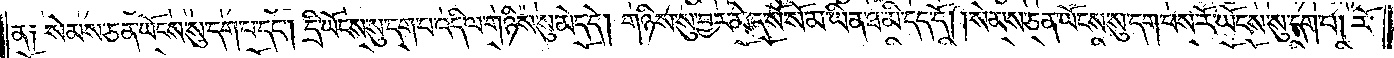ན། སེམས་ཅན་ཡོངས་སུ་དག་པ་དང༌། དྲི་ཡོངས་སུ་དག་པ་འདི་ལ་གཉིས་སུ་མེད་དེ། གཉིས་སུ་བྱར་མེད་སོ་སོ་མ་ཡིན་ཐ་མི་དད་དོ། །སེམས་ཅན་ཡོངས་སུ་དག་པས་རོ་ཡོངས་སུ་དག་པ། རོ་
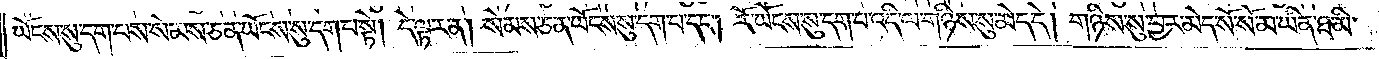ཡོངས་སུ་དག་པས་སེམས་ཅན་ཡོངས་སུ་དག་པ་སྟེ། དེ་ལྟར་ན། སེམས་ཅན་ཡོངས་སུ་དག་པ་དང༌། །རོ་ཡོངས་སུ་དག་པ་འདི་ལ་གཉིས་སུ་མེད་དེ། གཉིས་སུ་བྱར་མེད་སོ་སོ་མ་ཡིན་ཐ་མི་
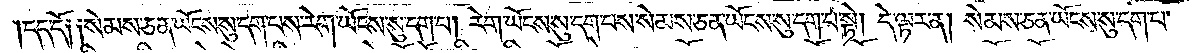དད་དོ། །སེམས་ཅན་ཡོངས་སུ་དག་པས་རེག་ཡོངས་སུ་དག་པ། རེག་ཡོངས་སུ་དག་པས་སེམས་ཅན་ཡོངས་སུ་དག་པ་སྟེ། དེ་ལྟར་ན། སེམས་ཅན་ཡོངས་སུ་དག་པ་
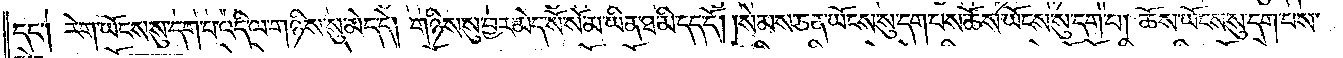དང༌། རེག་ཡོངས་སུ་དག་པ་འདི་ལ་གཉིས་སུ་མེད་དེ། གཉིས་སུ་བྱར་མེད་སོ་སོ་མ་ཡིན་ཐ་མི་དད་དོ། །སེམས་ཅན་ཡོངས་སུ་དག་པས་ཆོས་ཡོངས་སུ་དག་པ། ཆོས་ཡོངས་སུ་དག་པས་
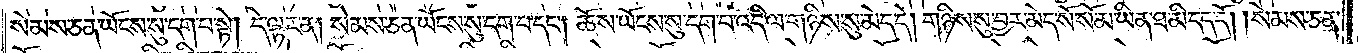སེམས་ཅན་ཡོངས་སུ་དག་པ་སྟེ། དེ་ལྟར་ན། སེམས་ཅན་ཡོངས་སུ་དག་པ་དང༌། ཆོས་ཡོངས་སུ་དག་པ་འདི་ལ་གཉིས་སུ་མེད་དེ། གཉིས་སུ་བྱར་མེད་སོ་སོ་མ་ཡིན་ཐ་མི་དད་དོ། །སེམས་ཅན་
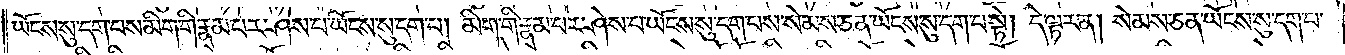ཡོངས་སུ་དག་པས་མིག་གི་རྣམ་པར་ཤེས་པ་ཡོངས་སུ་དག་པ། མིག་གི་རྣམ་པར་ཤེས་པ་ཡོངས་སུ་དག་པས་སེམས་ཅན་ཡོངས་སུ་དག་པ་སྟེ། དེ་ལྟར་ན། སེམས་ཅན་ཡོངས་སུ་དག་པ་
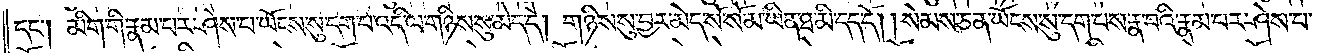དང༌། མིག་གི་རྣམ་པར་ཤེས་པ་ཡོངས་སུ་དག་པ་འདི་ལ་གཉིས་སུ་མེད་དེ། གཉིས་སུ་བྱར་མེད་སོ་སོ་མ་ཡིན་ཐ་མི་དད་དོ། །སེམས་ཅན་ཡོངས་སུ་དག་པས་རྣ་བའི་རྣམ་པར་ཤེས་པ་
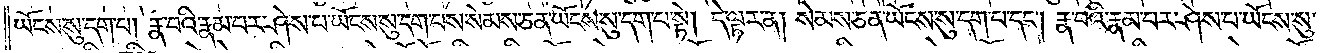ཡོངས་སུ་དག་པ། རྣ་བའི་རྣམ་པར་ཤེས་པ་ཡོངས་སུ་དག་པས་སེམས་ཅན་ཡོངས་སུ་དག་པ་སྟེ། དེ་ལྟར་ན། སེམས་ཅན་ཡོངས་སུ་དག་པ་དང༌། རྣ་བའི་རྣམ་པར་ཤེས་པ་ཡོངས་སུ་
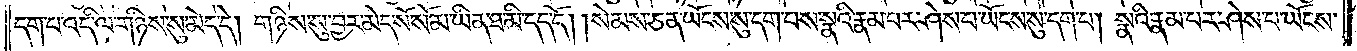དག་པ་འདི་ལ་གཉིས་སུ་མེད་དེ། གཉིས་སུ་བྱར་མེད་སོ་སོ་མ་ཡིན་ཐ་མི་དད་དོ། །སེམས་ཅན་ཡོངས་སུ་དག་པས་སྣའི་རྣམ་པར་ཤེས་པ་ཡོངས་སུ་དག་པ། སྣའི་རྣམ་པར་ཤེས་པ་ཡོངས་
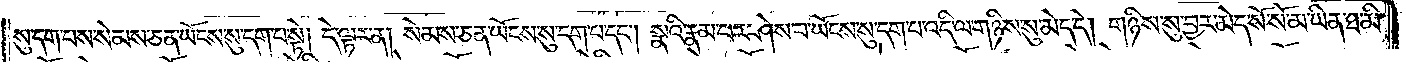སུ་དག་པས་སེམས་ཅན་ཡོངས་སུ་དག་པ་སྟེ། དེ་ལྟར་ན། སེམས་ཅན་ཡོངས་སུ་དག་པ་དང༌། སྣའི་རྣམ་པར་ཤེས་པ་ཡོངས་སུ་དག་པ་འདི་ལ་གཉིས་སུ་མེད་དེ། གཉིས་སུ་བྱར་མེད་སོ་སོ་མ་ཡིན་ཐ་མི་
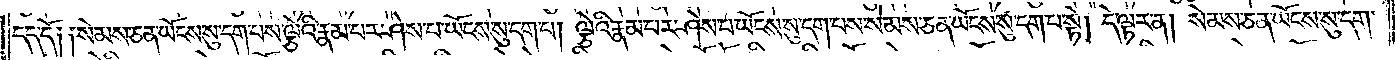དད་དོ༑ ༑སེམས་ཅན་ཡོངས་སུ་དག་པས་ལྕེའི་རྣམ་པར་ཤེས་པ་ཡོངས་སུ་དག་པ། ལྕེའི་རྣམ་པར་ཤེས་པ་ཡོངས་སུ་དག་པས་སེམས་ཅན་ཡོངས་སུ་དག་པ་སྟེ། དེ་ལྟར་ན། སེམས་ཅན་ཡོངས་སུ་དག་
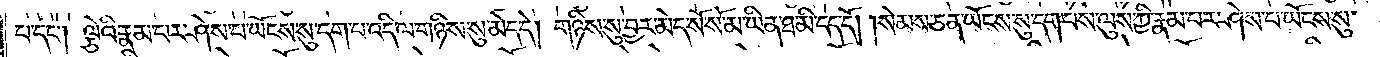པ་དང༌། ལྕེའི་རྣམ་པར་ཤེས་པ་ཡོངས་སུ་དག་པ་འདི་ལ་གཉིས་སུ་མེད་དེ། གཉིས་སུ་བྱར་མེད་སོ་སོ་མ་ཡིན་ཐ་མི་དད་དོ། །སེམས་ཅན་ཡོངས་སུ་དག་པས་ལུས་ཀྱི་རྣམ་པར་ཤེས་པ་ཡོངས་སུ་
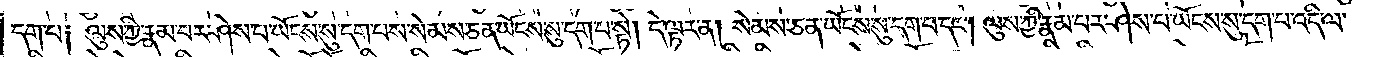དག་པ༑ ལུས་ཀྱི་རྣམ་པར་ཤེས་པ་ཡོངས་སུ་དག་པས་སེམས་ཅན་ཡོངས་སུ་དག་པ་སྟེ། དེ་ལྟར་ན། སེམས་ཅན་ཡོངས་སུ་དག་པ་དང༌། ལུས་ཀྱི་རྣམ་པར་ཤེས་པ་ཡོངས་སུ་དག་པ་འདི་ལ་
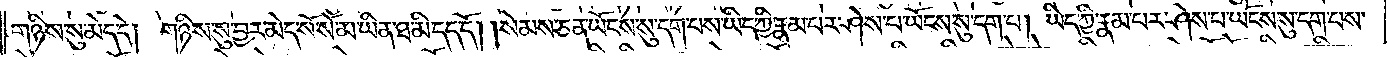གཉིས་སུ་མེད་དེ། གཉིས་སུ་བྱར་མེད་སོ་སོ་མ་ཡིན་ཐ་མི་དད་དོ། སེམས་ཅན་ཡོངས་སུ་དག་པས་ཡིད་ཀྱི་རྣམ་པར་ཤེས་པ་ཡོངས་སུ་དག་པ། ཡིད་ཀྱི་རྣམ་པར་ཤེས་པ་ཡོངས་སུ་དག་པས་
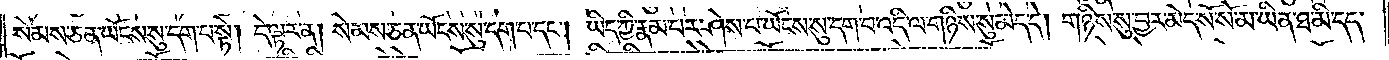སེམས་ཅན་ཡོངས་སུ་དག་པ་སྟེ། དེ་ལྟར་ན། སེམས་ཅན་ཡོངས་སུ་དག་པ་དང༌། ཡིད་ཀྱི་རྣམ་པར་ཤེས་པ་ཡོངས་སུ་དག་པ་འདི་ལ་གཉིས་སུ་མེད་དེ། གཉིས་སུ་བྱར་མེད་སོ་སོ་སོ་མ་ཡིན་ཐ་མི་དད་
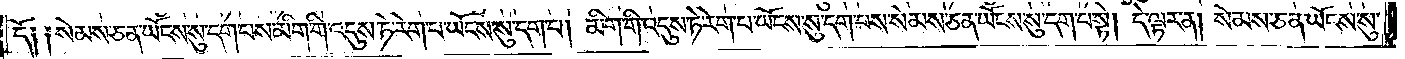དོ༑ ༑སེམས་ཅན་ཡོངས་སུ་དག་པས་མིག་གི་འདུས་ཏེ་རེག་པ་ཡོངས་སུ་དག་པ། མིག་གི་འདུས་ཏེ་རེག་པ་ཡོངས་སུ་དག་པས་སེམས་ཅན་ཡོངས་སུ་དག་པ་སྟེ། དེ་ལྟར་ན། སེམས་ཅན་ཡོངས་སུ་
